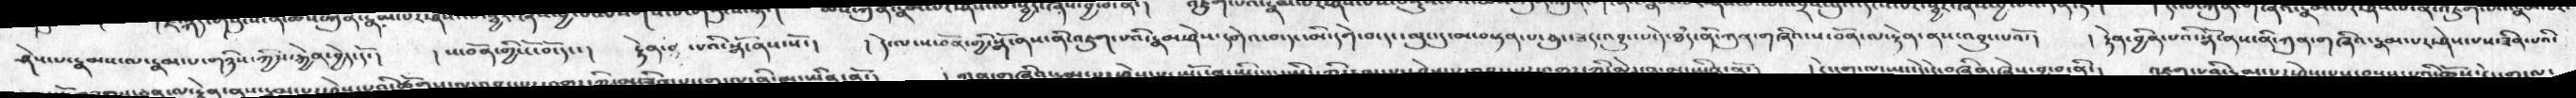ཤེས་པ་རྣམས་ལ་རྣམ་པ་གཉིས་ཀྱིས་རྐྱེན་བྱེད་དོ་།  ། ས་བོན་གྱི་ངོ་བོ་དང་།  རྟེན་པའི་སྒོ་ནས་སོ་།   ། དེ་ལ་ས་བོན་གྱི་སྒོ་ནས་ནི་འཇུག་པའི་རྣམ་ཤེས་དགེའ་བ་དང་མི་དགེ་བ་དང་ལུང་དུ་མ་བསྟན་པ་ཅུང་ཟད་འབྱུང་པ་དེ་ཐཾད་ནི་ཀུན་གཞིའ་ས་བོན་ལ་རྟེན་ནས་འབྱུང་པའོ་།   ། རྟེན་བྱིན་པའི་སྒོ་ནས་ནི་ཀུན་གཞིའ་རྣམ་པར་ཤེས་པས་ཟིན་པའི་
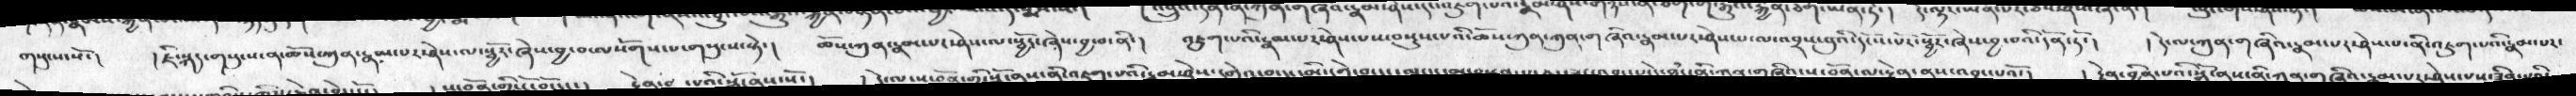གསུངས་སོ་།   ། ཇི་སྐད་གསུངས་ན་ཆོས་ཀུན་རྣམ་པར་ཤེས་ལ་སྦྱོར་ཞེས་བྱ་བ་ལསོགས་པ་གསུངས་སྟེ་།  ཆོས་ཀུན་རྣམ་པར་ཤེས་ལ་སྦྱོར་ཞེས་བྱ་བ་ནི་།  འཇུག་པའི་རྣམ་པར་ཤེས་པས་བསྡུས་པའི་ཆོས་ཀུན་ཀུན་གཞིའ་རྣམ་པར་ཤེས་པ་ལ་འབྲས་བུའི་དངོས་པར་སྦྱོར་ཞེས་བྱ་བའི་དོན་དོ་།   ། དེ་ལ་ཀུན་གཞིའ་རྣམ་པར་ཤེས་པ་ནི་འཇུག་པའི་རྣམ་པར་
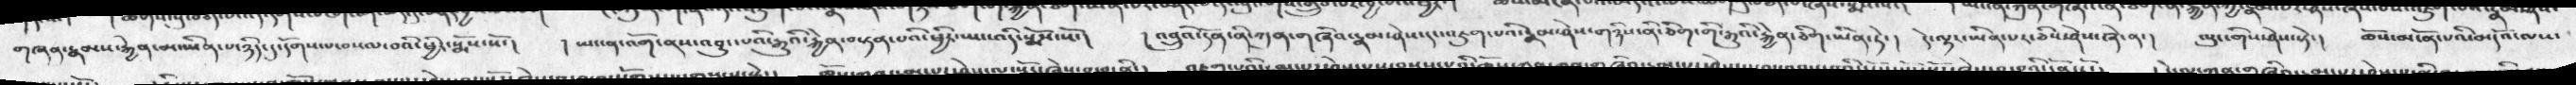གཞན་རྣམས་རྐྱེན་མ་ཡིན་པ་ཉིད་དུ་དགོས་པ་བསལ་བའི་ཕྱིར་སྨོས་སོ་།  ། ཡང་ན་འོག་ནས་འབྱུང་པའི་རྒྱུའི་རྐྱེན་བསྟན་པའི་ཕྱིར་ཡང་འདི་སྨོས་སོ་།   ། འབྲུའི་དོན་ནི་ཀུན་གཞིའ་རྣམ་ཤེས་དང་འཇུག་པའི་རྣམ་ཤེས་གཉིས་ནི་ཅིག་གི་རྒྱུའི་རྐྱེན་ཅིག་ཡིན་ཏེ་།   དེ་ལྟར་ཡིན་པར་ཅིས་ཤེས་ཞེ་ན་།   ལུང་གིས་ཤེས་སྟེ་།   ཆོས་མངོན་པའི་མདོའ་ལས་
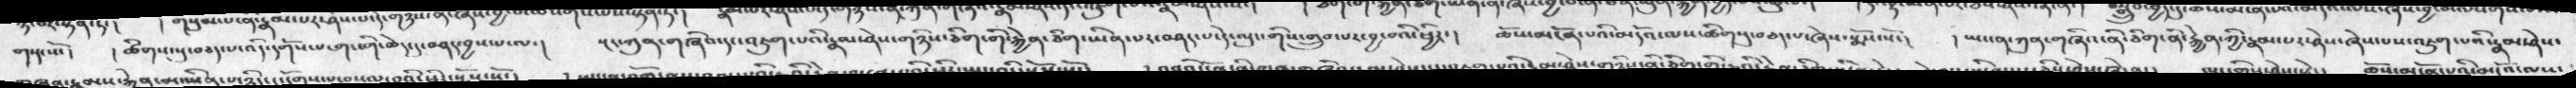གསུངས་ོ།   ། ཚིགས་སུ་བཅད་པ་འདི་དགོས་པ་གང་གི་ཆེད་བཤད་བྱས་པ་ལ་།  སྔར་ཀུན་གཞིའ་དང་འཇུག་པའི་རྣམ་ཤེས་གཉིས་ཅིག་གི་རྐྱེན་ཅིག་ཡིན་པར་བཤད་པ་དེ་ལུང་གིས་གྲུབ་པར་བྱ་བའི་ཕྱིར་།   ཆོས་མངོན་པའི་མདོའ་ལས་ཚིགས་སུ་བཅད་པ་ཞེས་སྨོས་སོ་།   ། ཡང་ན་ཀུན་གཞིའ་ནི་ཅིག་གི་རྐྱེན་ཀྱ་རྣམ་པར་ཤེས་ཞེས་པས་འཇུག་པའི་རྣམ་ཤེས་
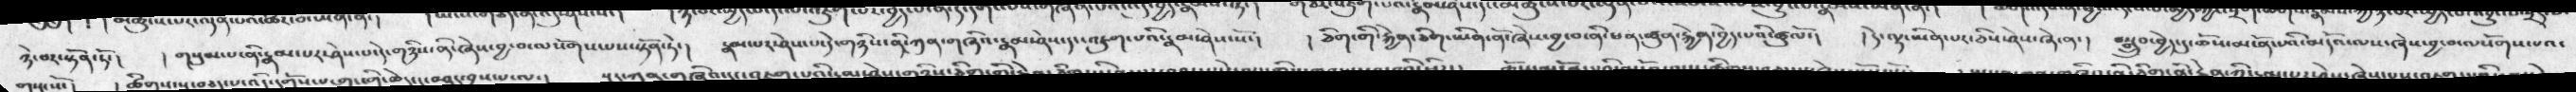ཉེ་བར་སྟོན་ཏོ་།   ། གསུམ་པ་ནི་རྣམ་པར་ཤེས་པ་དེ་གཉིས་ནི་ཞེས་བྱ་བ་ལསོགས་པས་སྟོན་ཏེ་།  རྣམ་པར་ཤེས་པ་དེ་གཉིས་ནི་ཀུན་གཞིའ་རྣམ་ཤེས་དང་འཇུག་པའི་རྣམ་ཤེས་སོ་།   ། ཅིག་གི་རྐྱེན་ཅིག་ཡིན་ནོ་ཞེས་བྱ་བ་ནི་ཕན་ཚུན་རྐྱེན་བྱེད་པའི་ཚུལོ་།   ། དེ་ལྟ་ཡིན་པར་ཅིས་ཤེས་ཞེ་ན་།   བསྒྲུབ་བྱེད་དུ་ཆོས་མངོན་པའི་མདོ་ལས་ཞེས་བྱ་བ་ལསོགས་པའ་
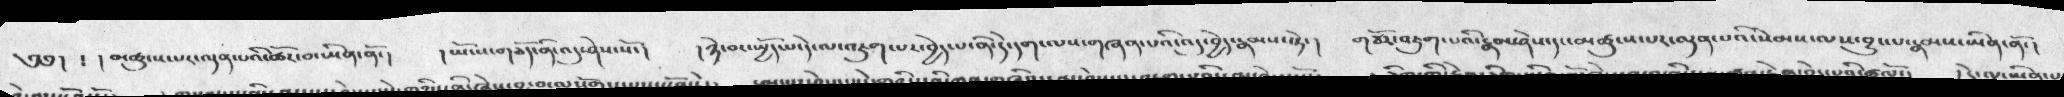༄༅།  ༴	།མཚུངས་པར་ལྡན་པའི་ཚོར་བ་ཡིན་ནོ་།   ། ཡོངས་གཅོད་ནི་འདུ་ཤེས་སོ་།   ། ཉེ་བར་སྤྱོད་པ་དེ་ལ་འཇུག་པར་བྱེད་པ་ནི་དེ་དག་ལས་གཞན་པའི་འདུ་བྱེད་རྣམས་སྟེ་།  གཙོར་འཇུག་པའི་རྣམ་ཤེས་དང་མཚུངས་པར་ལྡན་པའི་སེམས་ལས་བྱུང་པ་རྣམས་ཡིན་ནོ་།
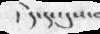།    དེ་དང་དུས་
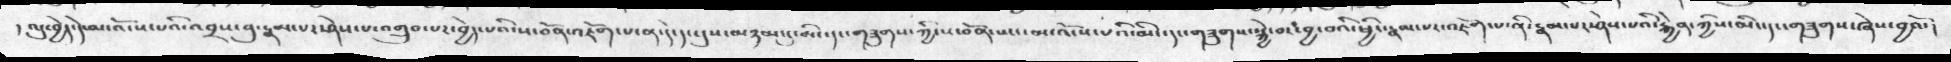། འདུ་བྱེད་དེ་མ་འོངས་པའི་འབྲས་བུ་རྣམ་པར་ཤེས་པ་འགྲུབ་པར་བྱེད་པའི་ས་བོན་འཇོག་པ་ན་དེ་དང་དུས་མཉམ་དུ་མིང་དང་གཟུགས་ཀྱི་ས་བོན་ཡང་མ་འོངས་པའི་མིང་དང་གཟུགས་སྐྱེ་བར་བྱ་བའི་ཕྱིར་རྣམ་པར་འཇོག་པ་ནི་རྣམ་པར་ཤེས་པར་ཤེས་པའི་རྐྱེན་ཀྱི་མིང་དང་གཟུགས་ཞེས་བྱའོ་།
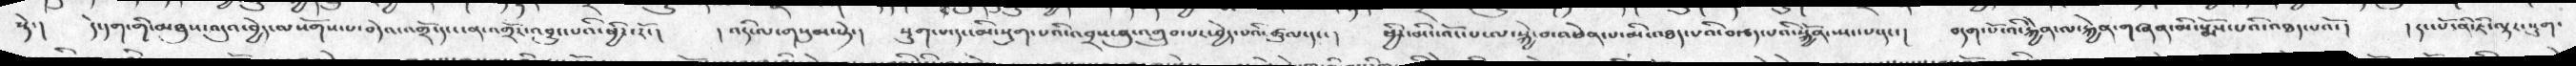སྟེ་།   དེ་དག་གི་མཐུས་འདུའ་བྱེད་ལསོགས་པ་བདེ་འགྲོ་དང་ངན་འགྲོར་འབྱུང་པའི་ཕྱིར་རོ་།  ། འདི་ལ་གསུམ་སྟེ་།   སྡུག་པ་དང་མི་སྡུག་པའི་འབྲས་བུ་འགྲུབ་པར་བྱེད་པའི་ཚུལ་དང་།   ཕྱིར་མི་འོང་པ་ལ་སྐྱེ་བ་འཕེན་པ་མི་འཐད་པའི་རྩད་པའི་སྐྱོན་སྤང་པ་དང་།   བདག་པོ་འི་རྐྱེན་གཞན་མི་སྨོས་པའི་འཐད་པའོ་།    །དང་པོ་ནི་ཇི་ལྟར་སྡུག་
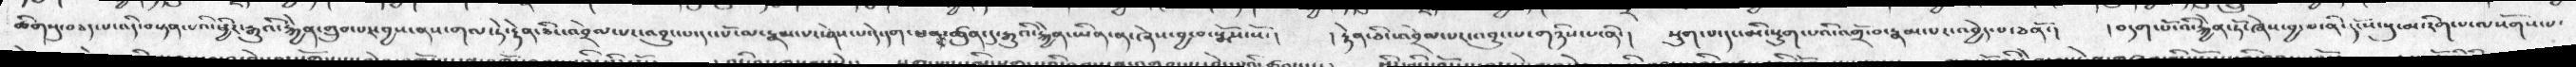ཚིགསུ་བཅད་པ་འདི་བསྟན་པའི་ཕྱིར་རྒྱུའི་རྐྱེན་གྲུབ་པར་བྱས་ནས་གལ་ཏེ་རྟེན་ཅིང་འབྲེལ་པ་འབྱུང་པ་དང་པོ་ལ་རྣམ་པར་ཤེས་པ་དེ་དག་ཕན་ཚུན་དུ་རྒྱུའི་རྐྱེན་ཡིན་ན་ཞེས་བྱ་བ་སྨོས་སོ་།   ། རྟེན་ཅིང་འབྲེལ་པར་འབྱུང་པ་གཉིས་པ་ནི་།   སྡུག་པ་དང་མི་སྡུག་པའི་འགྲོ་བ་རྣམ་པར་འབྱེད་པ་ཅནོ་།   །བདག་པོ་འི་རྐྱེན་ཏོ་ཞེས་བྱ་བ་ནི་དངོས་སུ་མ་རིག་པ་ལསོགས་པ་
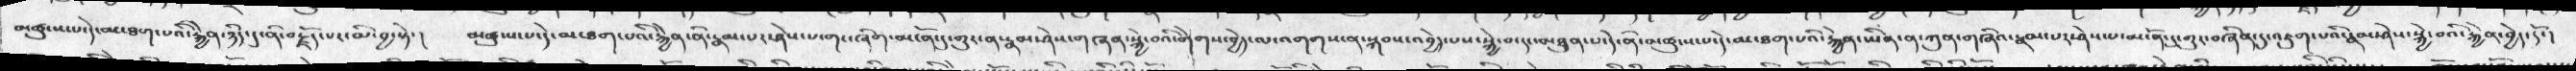མཚུངས་པ་དེ་མ་ཐག་པའི་རྐྱེན་ཉིད་དུ་ན་བརྗོད་པར་མ་བྱ་སྟེ་།   མཚུངས་པ་དེ་མ་ཐག་པའི་རྐྱེན་ནི་རྣམ་པར་ཤེས་པ་གང་ཞིག་མངོན་དུ་གྱུར་ན་རྣམ་ཤེས་གཞན་སྐྱེ་བའི་གེགས་བྱེད་ལ་འགགས་ན་སྐབས་འབྱེད་པས་སྐྱེ་བ་དང་མཐུན་པ་དེ་ནི་མཚུངས་པ་དེ་མ་ཐག་པའི་རྐྱེན་ཡིན་ན་ཀུན་གཞིའ་རྣམ་པར་ཤེས་པ་མངོན་དུ་གྱུར་བཞིན་དུ་འཇུག་པའི་རྣམ་ཤེས་སྐྱེ་བའི་རྐྱེན་བྱེད་དོ་།
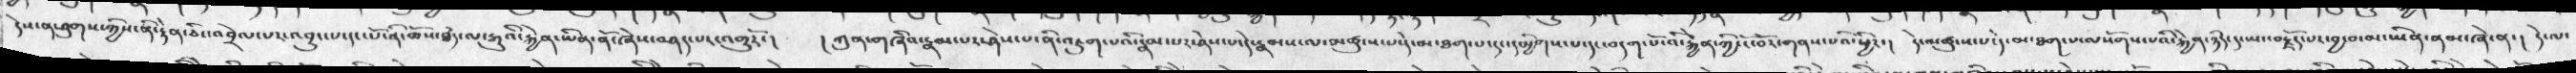དེས་ན་ཐུགས་ཀྱིས་ནི་རྟེན་ཅིང་འབྲེལ་པར་འབྱུང་པ་དང་པོ་ནི་ཆོས་ཐཾད་ལ་རྒྱུའི་རྐྱེན་ཡིན་ནོ་ཞེས་བཤད་པར་འགྱུརོ་།  ། ཀུན་གཞིའ་རྣམ་པར་ཤེས་པ་ནི་འཇུག་པའི་རྣམ་པར་ཤེ་པ་དེ་རྣམས་ལ་མཚུངས་པ་དེ་ཐག་པ་དང་དམྱིགས་པ་དང་བདག་པོ་འི་རྐྱེན་ཀྱི་ངོ་བོར་གནས་པའི་ཕྱིར་།   དེ་མཚུངས་པ་དེ་མ་ཐག་པ་ལསོགས་པའི་རྐྱེན་ཉིད་དུ་མ་བརྗོད་པར་བྱ་བ་མ་ཡིན་ནམ་ཞེ་ན་།   དེ་ལ་
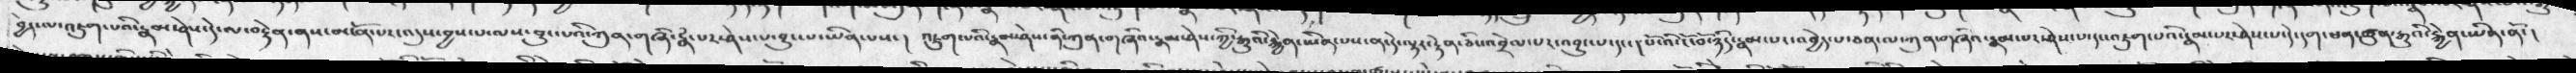བྱེད་ལ་འཇུག་པའི་རྣམ་ཤེས་དེ་ལ་བརྟེན་ནས་མངོན་པར་འདུས་བྱས་པ་ལས་བྱུང་པའི་ཀུན་གཞི་རྣཾ་པར་ཤེས་པ་ནུས་པ་ཡིན་པས་།  འཇུག་པའི་རྣམ་ཤེས་ནི་ཀུན་གཞིའ་རྣམ་ཤེས་ཀྱི་རྒྱུའི་རྐྱེན་ཡིན་པས་ན་དེ་ལྟར་རྟེན་ཅིང་འབྲེལ་པར་འབྱུང་པ་དང་།  པོ་འི་ངོ་བོ་ཉིད་རྣམ་པར་འབྱེད་པ་ཅན་ལ་ཀུན་གཞིའ་རྣམ་པར་ཤེས་པ་དང་འཇུག་པའི་རྣམ་པར་ཤེས་པ་དེ་དག་ཕན་ཚུན་རྒྱུའི་རྐྱེན་ཡིན་ནོ་།
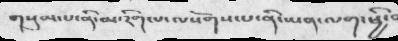གསུམ་པ་ནི་མ་རིག་པ་ལསོགས་པ་ནི་ཡན་ལག་ཕྱི་མ
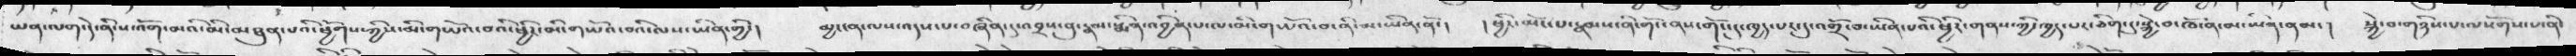ཡན་ལག་དེ་ནི་ས་འོག་མའི་མི་མཐུན་པའི་ཕྱོགས་ཀྱིས་མི་གཡོའ་བའི་ཕྱིར་མི་གཡོའ་བའི་ལས་ཡིན་གྱི་།   མྱ་ངན་ལས་འདས་པ་བཞིན་དུ་འབྲས་བུ་རྣམ་སྨིན་འབྱིན་པ་ལ་མི་གཡོའ་བ་ནི་མ་ཡིན་ནོ་།   ། ཕྱིར་ཡོང་པ་རྣམས་ནི་གོང་ནས་གོང་དུ་ཁྱད་པར་དུ་འགྲོ་བ་ཡིན་པའི་ཕྱིར་གནས་ཀྱི་ཁྱད་པར་ཅིག་དུ་སྐྱེ་བ་ཁོ་ན་མ་ཡིན་ནམ་།   སྐྱེ་བ་གཉིས་པ་ལསོགས་པ་ནི་
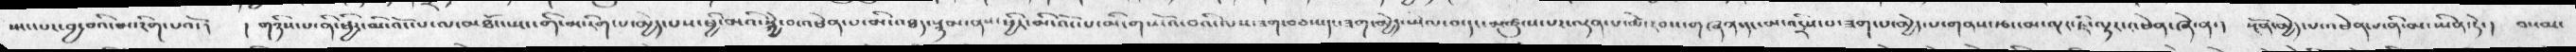སྤང་པར་བྱ་བའི་མ་རིག་པའོ་།  ། གཉིས་པ་ནི་ཕྱིར་མི་འོང་པ་ལ་མཐོང་ཡང་གི་མ་རིག་པ་མྱེད་པས་ཕྱི་མའི་སྐྱེ་བ་འཕེན་པ་མི་འཐད་སྙམ་ནས་ཕྱིར་མི་འོང་པ་མི་གཡོའ་བའི་ལས་ཟག་བཅས་དང་ཟག་མྱེད་སྤེལ་བ་དང་མཚུངས་པར་ལྡན་པ་ཚེ་རབས་གཞན་དང་མ་འདྲིས་པ་ཟག་པ་མེད་པ་གནས་རྩ་མ་ལྟར་འཕེན་ཞེ་ན་།  སྔོན་མྱེད་པ་འཕེན་པ་ནི་མ་ཡིན་ཏེ་།  བསམ་
